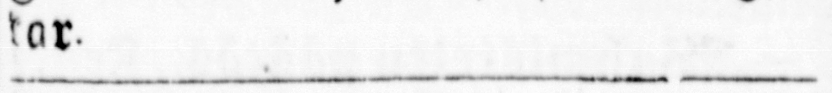kar.
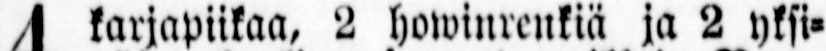4 karjapiikaa, 2 howinrenkiä ja 2 yksi-
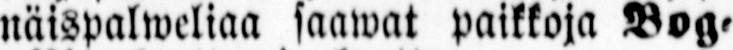näispalweliaa saawat paikkoja Bog-
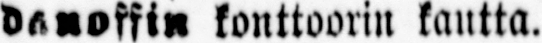danoffin konttoorin kautta.
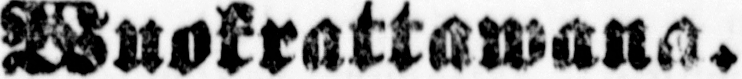Wuokrattawana.
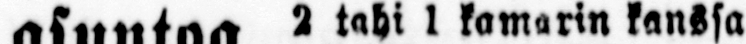2 asuntoa, 2 tahi l kamarin kanssa
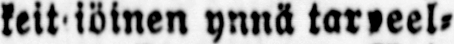keit iöinen ynnä tarpeel-
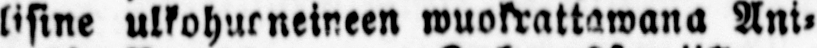lisine ulkohuoneineen wuokrattawana Ani-
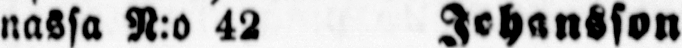nassa N:o 42 Johansson'illa.
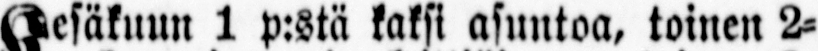Kesäkuun 1 p:stä kaksi asuntoa, toinen 2-
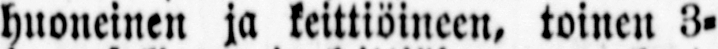huoneinen ja keittiöineen, toinen 3-
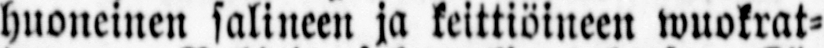huoneinen salineen ja keittiöineen wuokrat-
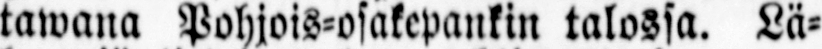tawana Pohjois-osakepankin talossa. Lä-
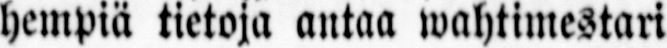hempiä tietoja antaa wahtimestari
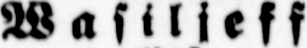Wasiljeff
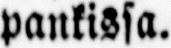pankissa.
